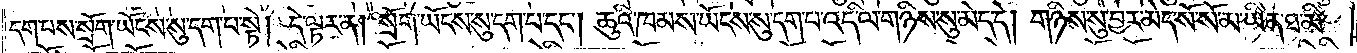དག་པས་སྲོག་ཡོངས་སུ་དག་པ་སྟེ། དེ་ལྟར་ན། སྲོག་ཡོངས་སུ་དག་པ་དང༌། ཆུའི་ཁམས་ཡོངས་སུ་དག་པ་འདི་ལ་གཉིས་སུ་མེད་དེ། གཉིས་སུ་བྱར་མེད་སོ་སོ་མ་ཡིན་ཐ་མི་
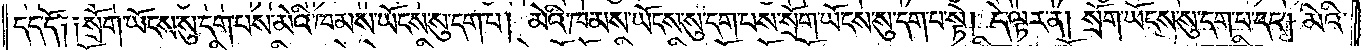དད་དོ། །སྲོག་ཡོངས་སུ་དག་པས་མེའི་ཁམས་ཡོངས་སུ་དག་པ། མེའི་ཁམས་ཡོངས་སུ་དག་པས་སྲོག་ཡོངས་སུ་དག་པ་སྟེ། དེ་ལྟར་ན། སྲོག་ཡོངས་སུ་དག་པ་དང༌། མེའི་
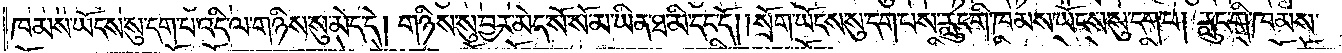ཁམས་ཡོངས་སུ་དག་པ་འདི་ལ་གཉིས་སུ་མེད་དེ། གཉིས་སུ་བྱར་མེད་སོ་སོ་མ་ཡིན་ཐ་མི་དད་དོ། །སྲོག་ཡོངས་སུ་དག་པས་རླུང་གི་ཁམས་ཡོངས་སུ་དག་པ། རླུང་གི་ཁམས་
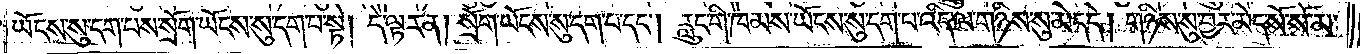ཡོངས་སུ་དག་པས་སྲོག་ཡོངས་སུ་དག་པ་སྟེ། དེ་ལྟར་ན། སྲོག་ཡོངས་སུ་དག་པ་དང༌། རླུང་གི་ཁམས་ཡོངས་སུ་དག་པ་འདི་ལ་གཉིས་སུ་མེད་དེ། གཉིས་སུ་བྱར་མེད་སོ་སོ་མ་
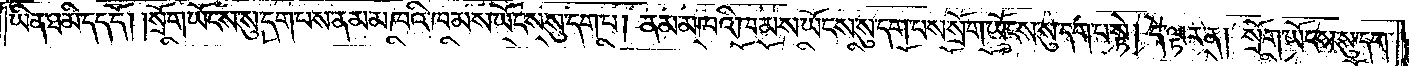ཡིན་ཐ་མི་དད་དོ། །སྲོག་ཡོངས་སུ་དག་པས་ནམ་མཁའི་ཁམས་ཡོངས་སུ་དག་པ། ནམ་མཁའི་ཁམས་ཡོངས་སུ་དག་པས་སྲོག་ཡོངས་སུ་དག་པ་སྟེ། དེ་ལྟར་ན། སྲོག་ཡོངས་སུ་དག་
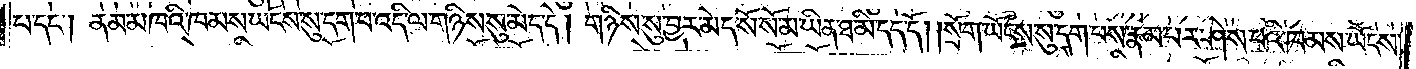པ་དང༌། ནམ་མཁའི་ཁམས་ཡོངས་སུ་དག་པ་འདི་ལ་གཉིས་སུ་མེད་དེ། གཉིས་སུ་བྱར་མེད་སོ་སོ་མ་ཡིན་ཐ་མི་དད་དོ། །སྲོག་ཡོངས་སུ་དག་པས་རྣམ་པར་ཤེས་པའི་ཁམས་ཡོངས་
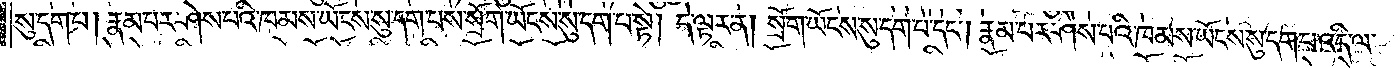སུ་དག་པ། རྣམ་པར་དག་ཤེས་པའི་ཁམས་ཡོངས་སུ་དག་པས་སྲོག་ཡོངས་སུ་དག་པ་སྟེ། དེ་ལྟར་ན། སྲོག་ཡོངས་སུ་དག་པ་དང༌། རྣམ་པར་ཤེས་པའི་ཁམས་ཡོངས་སུ་དག་པ་འདི་ལ་
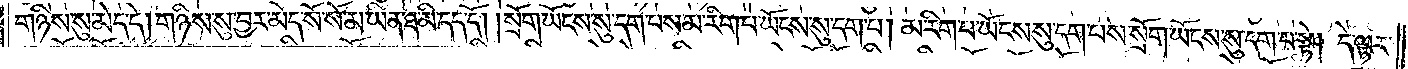གཉིས་སུ་མེད་དེ། གཉིས་སུ་བྱར་མེད་སོ་སོ་མ་ཡིན་ཐ་མི་དད་དོ། །སྲོག་ཡོངས་སུ་དག་པས་མ་རིག་པ་ཡོངས་སུ་དག་པ། མ་རིག་པ་ཡོངས་སུ་དག་པས་སྲོག་ཡོངས་སུ་དག་པ་སྟེ། དེ་ལྟར་
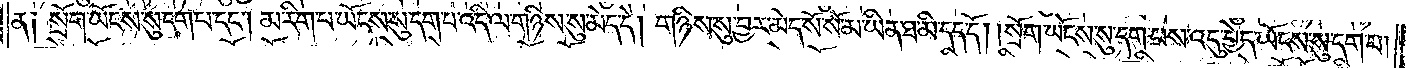ན༑ སྲོག་ཡོངས་སུ་དག་པ་དང༌། མ་རིག་པ་ཡོངས་སུ་དག་པ་འདི་ལ་གཉིས་སུ་མེད་དེ། གཉིས་སུ་བྱར་མེད་སོ་སོ་མ་ཡིན་ཐ་མི་དད་དོ། །སྲོག་ཡོངས་སུ་དག་པས་འདུ་བྱེད་ཡོངས་སུ་དག་པ།
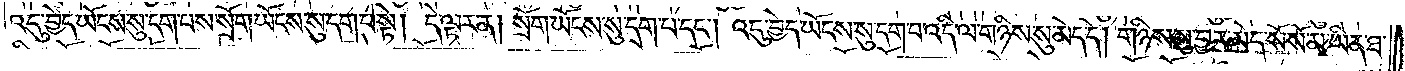འདུ་བྱེད་ཡོངས་སུ་དག་པས་སྲོག་ཡོངས་སུ་དག་པ་སྟེ། དེ་ལྟར་ན། སྲོག་ཡོངས་སུ་དག་པ་དང༌། འདུ་བྱེད་ཡོངས་སུ་དག་པ་འདི་ལ་གཉིས་སུ་མེད་དེ། གཉིས་སུ་བྱར་མེད་སོ་སོ་མ་ཡིན་ཐ་
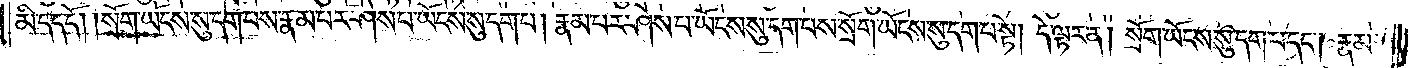མི་དད་དོ། །སྲོག་ཡོངས་སུ་དག་པས་རྣམ་པར་ཤེས་པ་ཡོངས་སུ་དག་པ། རྣམ་པར་ཤེས་པ་ཡོངས་སུ་དག་པས་སྲོག་ཡོངས་སུ་དག་པ་སྟེ། དེ་ལྟར་ན། སྲོག་ཡོངས་སུ་དག་པ་དང༌། རྣམ་
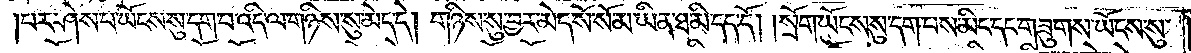པར་ཤེས་པ་ཡོངས་སུ་དག་པ་འདི་ལ་གཉིས་སུ་མེད་དེ། གཉིས་སུ་བྱར་མེད་སོ་སོ་མ་ཡིན་ཐ་མི་དད་དོ། །སྲོག་ཡོངས་སུ་དག་པས་མིང་དང་གཟུགས་ཡོངས་སུ་
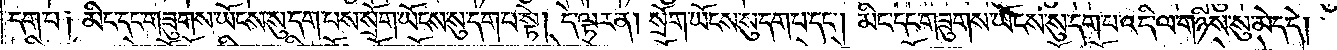དག་པ། མིང་དང་གཟུགས་ཡོངས་སུ་དག་པས་སྲོག་ཡོངས་སུ་དག་པ་སྟེ། དེ་ལྟར་ན། སྲོག་ཡོངས་སུ་དག་པ་དང༌། མིང་དང་གཟུགས་ཡོངས་སུ་དག་པ་འདི་ལ་གཉིས་སུ་མེད་དེ།
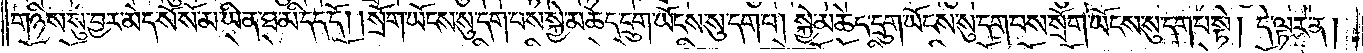གཉིས་སུ་བྱར་མེད་སོ་སོ་མ་ཡིན་ཐ་མི་དད་དོ། །སྲོག་ཡོངས་སུ་དག་པས་སྐྱེ་མཆེད་དྲུག་ཡོངས་སུ་དག་པ། སྐྱེ་མཆེད་དྲུག་ཡོངས་སུ་དག་པས་སྲོག་ཡོངས་སུ་དག་པ་སྟེ། དེ་ལྟར་ན།
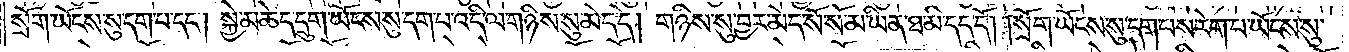སྲོག་ཡོངས་སུ་དག་པ་དང༌། སྐྱེ་མཆེད་དྲུག་ཡོངས་སུ་དག་པ་འདི་ལ་གཉིས་སུ་མེད་དེ། གཉིས་སུ་བྱར་མེད་སོ་སོ་མ་ཡིན་ཐ་མི་དད་དོ། །སྲོག་ཡོངས་སུ་དག་པས་རེག་པ་ཡོངས་སུ་
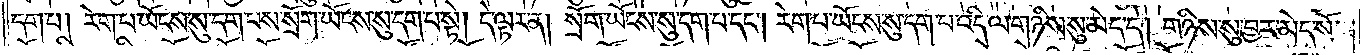དག་པ། རེག་པ་ཡོངས་སུ་དག་པས་སྲོག་ཡོངས་སུ་དག་པ་སྟེ། དེ་ལྟར་ན། སྲོག་ཡོངས་སུ་དག་པ་དང༌། རེག་པ་ཡོངས་སུ་དག་པ་འདི་ལ་གཉིས་སུ་མེད་དེ། གཉིས་སུ་བྱར་མེད་སོ་
